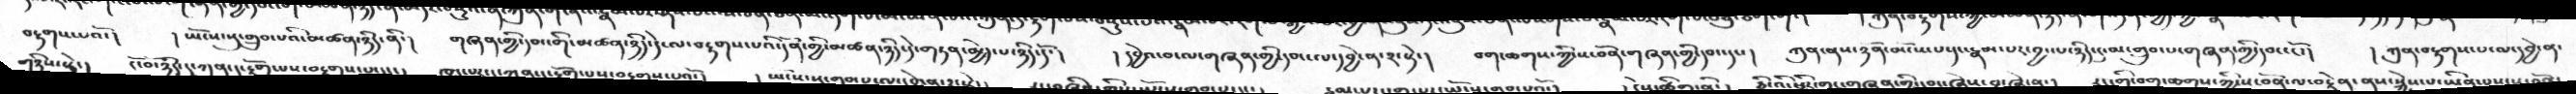བརྟགས་པའོ་།   །ཡོངས་སུ་གྲུབ་པའི་མཚན་ཉིད་ནི་།   གཞན་གྱི་དབང་གི་མཚན་ཉིད་དེ་ལ་བརྟགས་པའི་དོན་གྱི་མཚན་ཉིད་དེ་གཏན་མྱེད་པ་ཉིད་དོ་།   །དབྱེའ་བ་ལ་གཞན་གྱི་དབང་ལ་དབྱེ་ན་༢་སྟེ་།  བག་ཆགས་ཀྱི་ས་བོན་གཞན་གྱི་དབང་དང་།  ཀུན་ནས་ཉོན་མོངས་པ་དང་རྣམ་པར་བྱང་པ་ཉིད་དུ་མ་གྲུབ་པ་གཞན་ཀྱི་དབང་ངོ་།  །ཀུན་བརྟགས་པ་ལ་དབྱེ་ན་
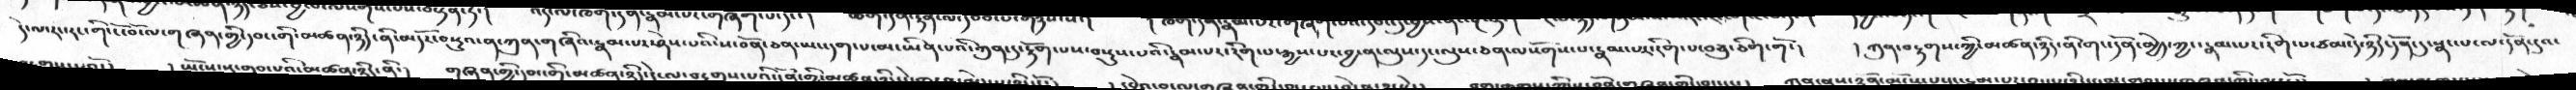དེ་ལ་རང་རང་གི་ངོ་བོ་ལ་གཞན་གྱི་དབང་གི་མཚན་ཉིད་ནི་མདོར་བསྡུའ་ན་ཀུན་གཞིའ་རྣམ་པར་ཤེས་པའི་ས་བོན་ཅན་ཡང་དག་པ་མ་ཡིན་པའི་ཀུན་དུ་རྟོག་པས་བསྡུས་པའི་རྣམ་པར་རིག་པ་རྒྱས་པར་བྱ་ན་ལུས་དང་ལུས་ཅན་ལསོགས་པ་རྣམ་པར་རིག་པ་བཅུ་ཅིག་གོ་།   །ཀུན་བརྟགས་ཀྱི་མཚན་ཉིད་ནི་དོན་མྱེད་ཀྱང་རྣམ་པར་རིག་པ་ཙམ་དེ་ཉིད་དོན་དུ་སྣང་པ་ལ་དོན་དུའ་
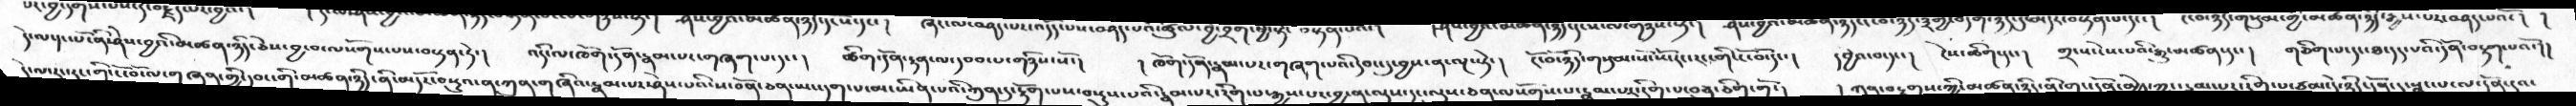དེ་ལ་དང་པོ་ནི་ཤེས་བྱའི་མཚན་ཉིད་ཅེས་བྱ་བ་ལསོགས་པས་བསྟན་ཏེ་།   འདི་ལ་ཁོག་དོན་རྣམ་པར་གཞག་པ་དང་།   ཚིག་དོན་རྟན་ལ་དབབ་པ་གཉིས་སོ་།  །ཁོག་དོན་རྣམ་པར་གཞག་པའི་དབང་དུ་བྱས་ན་ལྔ་སྟེ་།   ངོ་བོ་ཉིད་གསུམ་སོ་སོ་རང་རང་གི་ངོ་བོ་དང་།  དབྱེའ་བ་དང་།  ངེས་ཚིག་དང་།   གྲངས་ངེས་པའི་རྒྱུ་མཚན་དང་།   གཅིག་པ་དང་ཐ་དད་པའི་དོན་བརྟག་པའོ་།
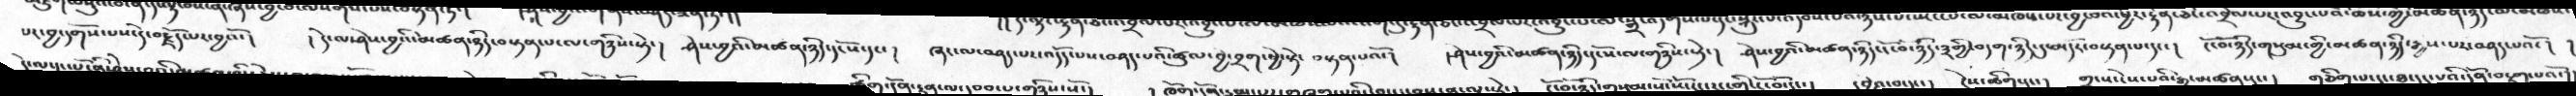པར་བྱ་དགོས་པས་དེ་བརྗོད་པར་བྱའོ་།  །དེ་ལ་ཤེས་བྱའི་མཚན་ཉིད་བསྟན་པ་ལ་གཉིས་སྟེ་།   ཤེས་བྱའི་མཚན་ཉིད་དངོས་དང་།   ཞར་ལ་བཤད་པར་འདོད་པས་བཤད་པའི་ཚུལ་བྱེ་བྲག་ཕྱེ་སྟེ་བསྟན་པའོ་།  །ཤེས་བྱའི་མཚན་ཉིད་དངོས་ལ་གཉིས་སྟེ་།   ཤེས་བྱའི་མཚན་ཉིད་ངོ་བོ་ཉིད་༣གྱི་བདག་ཉིད་དུ་མདོར་བསྟན་པ་དང་།  ངོ་བོ་ཉིད་གསུམ་གྱི་མཚན་ཉིད་རྒྱས་པར་བཤད་པའོ་།
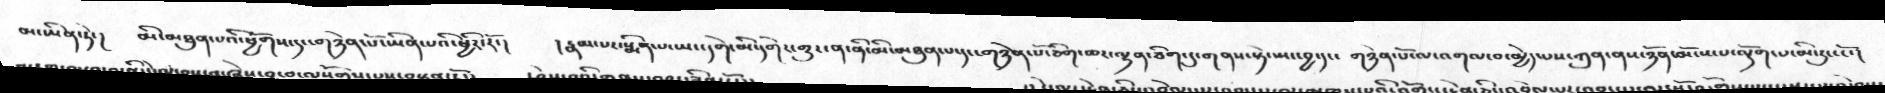མ་ཡིན་ཏེ་།   མི་མཐུན་པའི་ཕྱོགས་དང་གཉེན་པོ་ཡིན་པའི་ཕྱིར་རོ་།   །རྣམ་པར་སྨིན་པ་ཡང་དགེ་མི་དགེར་གྱུར་ན་ནི་མི་མཐུན་པ་དང་གཉེན་པོ་ཅིག་ཅར་ལྷན་ཅིག་དུ་གནས་སྟེ་སྤང་བྱ་དང་།  གཉེན་པོ་ལ་འགལ་བ་མྱེད་པས་ཀུན་ནས་ཉོན་མོངས་པ་ལྡོག་པ་མི་རུང་ངོ་།
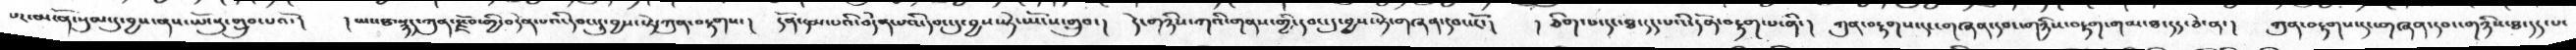པར་མངོན་སུམ་དུ་བྱས་ནས་ཡོངསུ་གྲུབ་པའོ་།  །ཡང་ཐ་སྙད་ཀུན་རྫོབ་གྱི་བདེན་པའི་དབང་དུ་བྱས་སྟེ་ཀུན་བརྟགས་།  དོན་དམ་པའི་བདེན་པའི་དབང་དུ་བྱས་སྟེ་ཡོངས་གྲུབ་།  དེ་གཉིས་ཀའི་གནས་གྱི་དབང་དུ་བྱས་སྟེ་གཞན་དབང་ངོ་།   །ཅིག་པ་དང་ཐ་དད་པའི་དོན་བརྟག་པ་ནི་།  ཀུན་བརྟགས་དང་གཞན་དབང་གཉིས་བརྟག་གམ་ཐ་དད་ཅེ་ན་།   ཀུན་བརྟགས་དང་གཞན་དབང་གཉིས་ཐ་དད་པ་
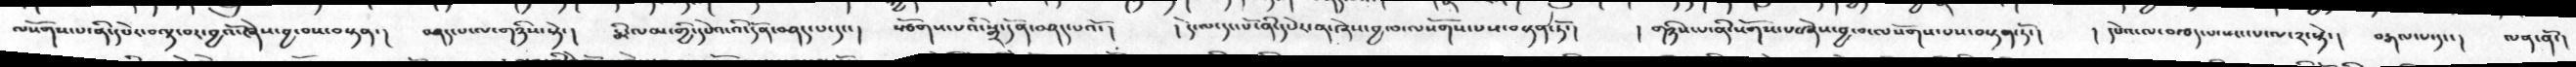ལསོགས་པ་ནི་དཔེར་བལྟ་བར་བྱའོ་ཞེས་བྱ་བས་བསྟན་།   བཤད་པ་ལ་གཉིས་སྟེ་།   རྨི་ལམ་གྱི་དཔེའ་འི་དོན་བཤད་པ་དང་།   སྩོགས་པ་སྒྲ་དོན་བཤད་པའོ་།  །དེ་ལ་དང་པོ་ནི་དཔེར་ན་ཞེས་བྱ་བ་ལསོགས་པས་བསྟན་ཏོ་།   །གཉིས་པ་ནི་སོགས་པ་ཞེས་བྱ་བ་ལསོགས་པས་བསྟན་ཏོ་།   །དཔེའ་ལ་བརྩད་པ་སྤང་པ་ལ་༢་སྟེ་།  བརྒལ་པ་དང་།   ལན་ནོ་།
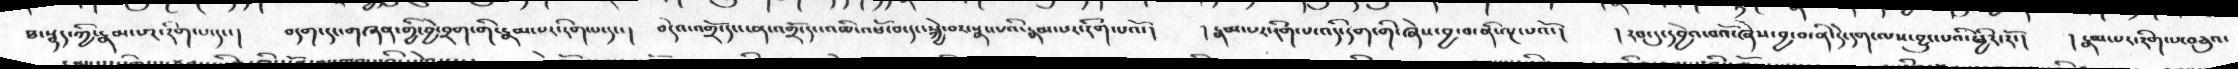ཐ་སྙད་ཀྱི་རྣམ་པར་རིག་པ་དང་།   བདག་དང་གཞན་གྱི་བྱེ་བྲག་གི་རྣམ་པར་རིག་པ་དང་།   བདེའ་འགྲོ་དང་ངན་འགྲོ་དང་འཆི་་འཕོ་བ་དང་སྐྱེ་བར་སྣང་པའི་རྣམ་པར་རིག་པའོ་།   །རྣམ་པར་རིག་པ་འདི་དག་གི་ཞེས་བྱ་བ་ནི་ལྔ་པའོ་།   །རབ་དུ་དབྱེའ་བའོ་ཞེས་བྱ་བ་ནི་དེ་དག་ལས་བྱུང་པའི་ཕྱིར་རོ་།  །རྣམ་པར་རིག་པ་བཅུའ་
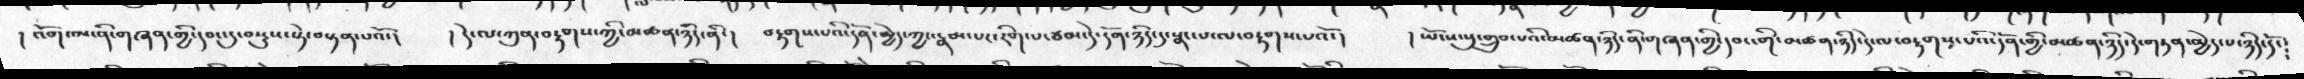། འོག་མ་ནི་གཞན་གྱི་དབང་དུ་བསྡུས་སྟེ་བསྟན་པའོ་།   །དེ་ལ་ཀུན་བརྟགས་ཀྱི་མཚན་ཉིད་ནི་།   བརྟགས་པའི་དོན་མྱེད་ཀྱང་རྣམ་པར་རིག་པ་ཙམ་དེ་དོན་ཉིད་དུ་སྣང་པ་ལ་བརྟགས་པའོ་།  །ཡོངས་སུ་གྲུབ་པའི་མཚན་ཉིད་ནི་གཞན་གྱི་དབང་གི་མཚན་ཉིད་དེ་ལ་བརྟགས་པའི་དོན་གྱི་མཚན་ཉིད་དེ་གཏན་མྱེད་པ་ཉིད་དོ༴
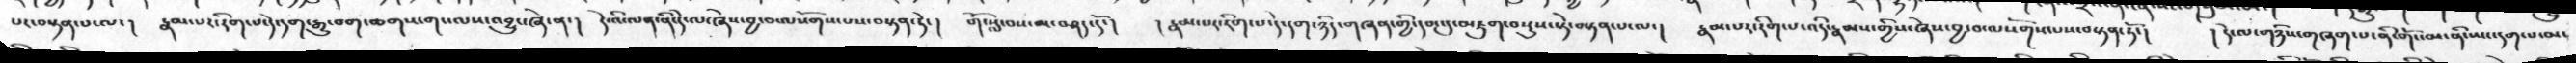པར་བསྟན་པ་ལ་།  རྣམ་པར་རིག་པ་དེ་དག་རྒྱུ་བག་ཆགས་གང་ལས་འབྱུང་ཞེ་ན་།   དེ་འི་ལན་ནི་དེ་ལ་ཞེས་བྱ་བ་ལསོགས་པས་བསྟན་ཏེ་།  གོ་སླ་བས་མ་བཤད་དོ་།  །རྣམ་པར་རིག་པ་དེ་དག་ཉིད་གཞན་གྱི་དབང་དུ་མཇུག་བསྡུས་སྟེ་བསྟན་པ་ལ་།   རྣམ་པར་རིག་པ་འདི་རྣམས་གྱིས་ཞེས་བྱ་བ་ལསོགས་པས་བསྟན་ཏོ་།  །དེ་ལ་གཉིས་གཞག་པ་ནི་གོང་མ་ནི་ཡང་དག་པ་མ་
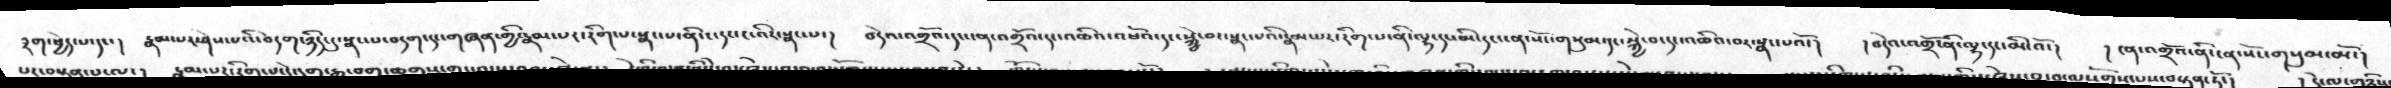བྲག་ཕྱེད་པ་དང་།   རྣམ་པར་ཤེས་པའི་བདག་ཉིད་དུ་སྣང་པ་བདག་དང་གཞན་གྱི་རྣམ་པར་རིག་པ་སྣང་པ་ནི་ང་དང་ང་འིར་སྣང་པ་།  བདེའ་འགྲོའ་དང་ངན་འགྲོའ་དང་འཆིའ་འཕོའ་དང་སྐྱེ་བར་སྣང་པའི་རྣམ་པར་རིག་པ་ནི་ལྷ་དང་མི་དང་ངན་སོང་གསུམ་དང་སྐྱེ་བ་དང་འཆིའ་བར་སྣང་པའོ་།  །བདེའ་འགྲོ་ནི་ལྷ་དང་མི་འོ་།   །ངན་འགྲོའ་ནི་ངན་སོང་གསུམ་མོ་།
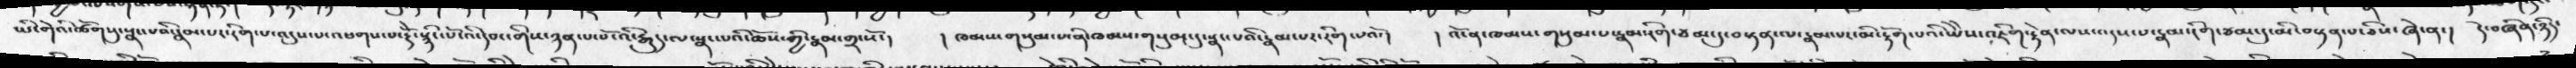ཡི་གེའི་ཚོགསུ་སྣང་པའི་རྣམ་པར་རིག་པ་འདུས་པ་འཕགས་པ་རྡོེ་སྙིང་པོ་འི་དབང་གིས་ཉན་པ་པོ་འི་རྒྱུད་ལ་སྣང་པའི་ཆོས་ཀྱི་རྣམ་གྲངསོ་།  །ཁམས་གསུམ་པ་ནི་ཁམས་གསུམ་དུ་སྣང་པའི་རྣམ་པར་རིག་པའོ་།   །འོ་ན་ཁམས་གསུམ་པ་རྣམ་རིག་ཙམ་དུ་བསྟན་ལ་རྣམ་པར་མི་རྟོག་པའི་ཡཻས་འཇིག་རྟེན་ལས་འདས་པ་རྣམ་རིག་ཙམ་དུ་མི་བསྟན་པ་ཅིས་ཞེ་ན་།  དེ་བཞིན་ཉིད་
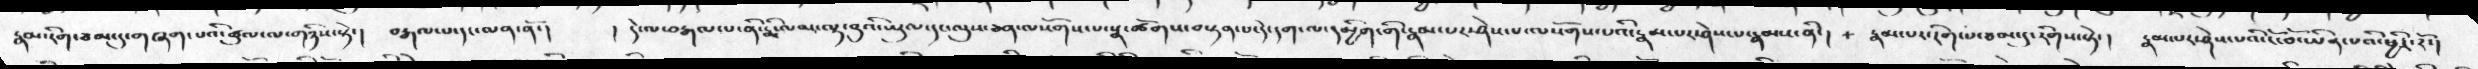རྣམ་རིག་ཙམ་དུ་གཞག་པའི་ཚུལ་ལ་གཉིས་སྟེ་།   བརྒལ་པ་དང་ལན་ནོ་།  །དེ་ལ་བརྒལ་པ་ནི་རྨི་ལམ་ལྟ་བུའི་ཡུལ་དང་ལུས་ཅན་ལསོགས་པ་སྣ་ཚོགས་བསྟན་པ་དེ་དག་ལ་དམྱིག་གི་རྣམ་པར་ཤེས་པ་ལསོགས་པའི་རྣམ་པར་ཤེས་པ་རྣམས་ནི་།   རྣམ་པར་རིག་པ་ཙམ་དུ་རིགས་སྟེ་།   རྣམ་པར་ཤེས་པའི་ངོ་བོ་ཡིན་པའི་ཕྱིར་རོ་།
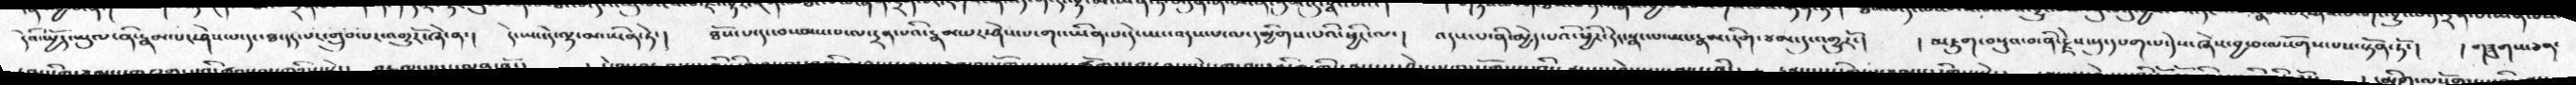དེའི་སྤྱོད་ཡུལ་ནི་རྣམ་པར་ཤེས་པ་དང་ཐ་དད་པར་གྲུབ་པར་འགྱུརོ་ཞེ་ན་།   དེ་ཡང་དེ་ལྟ་མ་ཡིན་ཏེ་།   ཐོས་པ་དང་བསམས་པ་ལ་དྲན་པའི་རྣམ་པར་ཤེས་པ་གང་ཡིན་པ་དེ་ཡང་འདས་པ་ལ་དམྱིགས་པའི་ཕྱིར་ལ་།   འདས་པ་ནི་མྱེད་པའི་ཕྱིར་དེར་སྣང་པ་ཡང་རྣམ་རིག་ཙམ་དུ་འགྱུརོ་།    ། མཇུག་བསྡུའ་བ་ནི་རྗེས་སུ་དཔག་པ་དེས་ཞེས་བྱ་བ་ལསོགས་པས་སྟོན་ཏོ་།   ། གཟུགས་ཅན་
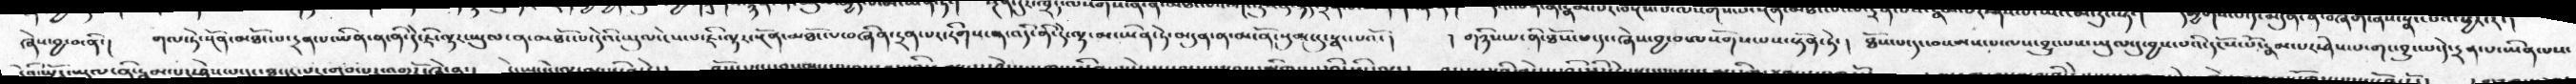ཞེས་བྱ་བ་ནི་།  གལ་ཏེ་སྔོན་མཐོང་པ་དྲན་པ་ཡིན་ན་ནི་དེ་ཇི་ལྟར་ཡུལ་ན་མཐོང་པ་དེའི་ཡུལ་ངེས་པ་ཇི་ལྟར་སྔོན་མཐོང་པ་བཞིན་དྲན་པར་རིགས་ན་འདི་ནི་དེ་ལྟ་མ་ཡིན་ཏེ་མདུན་ན་མངོན་སུམ་དུ་སྣང་པའོ་།   །གཉིས་པ་ནི་ཐོས་པ་དང་ཞེས་བྱ་བ་ལསོགས་པས་སྟོན་ཏེ་།  ཐོས་པ་དང་བསམས་པ་ལས་བྱུང་པས་ཡུལ་དུ་བྱས་པའི་དངོས་པོ་རྣམ་པར་ཤེས་པ་གང་བྱུང་པ་དེ་དྲན་པ་ཡིན་པས་
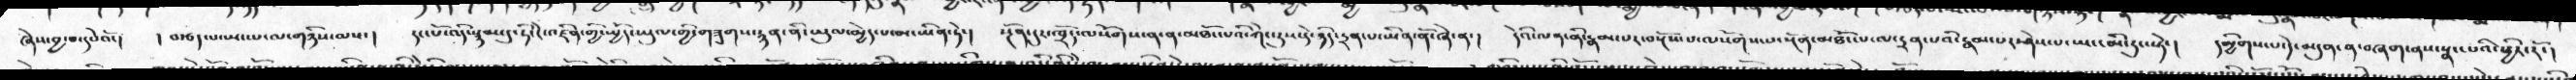ཞེས་བྱ་བ་དཔེའོ་།   །བརྩད་པ་སྤང་པ་ལ་གཉིས་ལས་།   དང་པོ་འདི་སྙམ་དུ་ཏིང་ངེ་འཛིན་གྱི་སྤྱོད་ཡུལ་གྱི་གཟུགས་རྙན་ནི་ཡུལ་མྱེད་པ་མ་ཡིན་ཏེ་།  སྔོན་དུར་ཁྲོད་ལསོགས་ན་ན་མཐོང་པའི་ཀེང་རུས་དེ་ཉིད་དྲན་པ་ཡིན་ནོ་ཞེ་ན་།  དེའི་ལན་ནི་རྣམ་པར་བསྔོས་པ་ལསོགས་པ་སྔོན་མཐོང་པ་ལ་དྲན་པའི་རྣམ་པར་ཤེས་པ་ཡང་མི་རུང་སྟེ་།   དམྱིགས་པ་དེ་མདུན་ན་བཞག་ནས་སྣང་པའི་ཕྱིར་རོ་།
